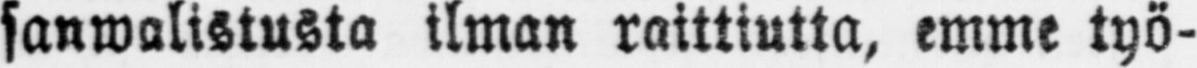sanwalistusta ilman raittiutta, emme työ-
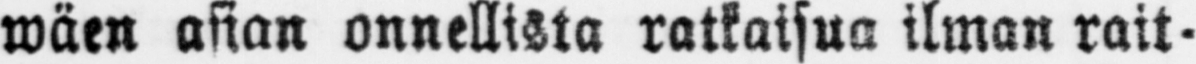wäen asian onnellista ratkaisua ilman rait-
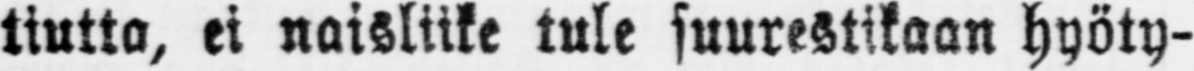tiutta, ei naisliike tule suurestikaan hyöty-
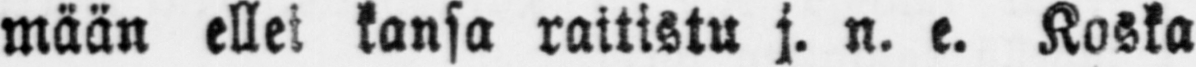mään ellei kansa raitistu j. n. e. Koska
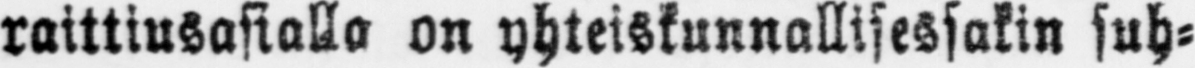raittiusasialla on yhteiskunnallisessakin suh-
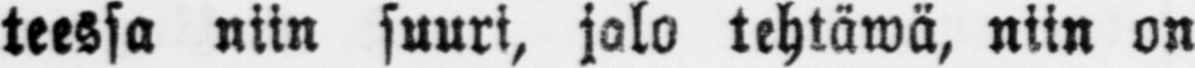teessa niin suuri, jalo tehtäwä, niin on
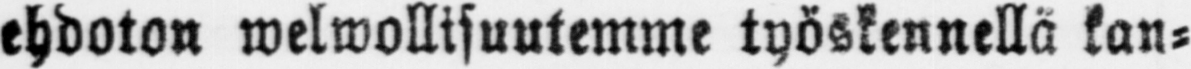ehdoton welwollisuutemme työskennellä kan-
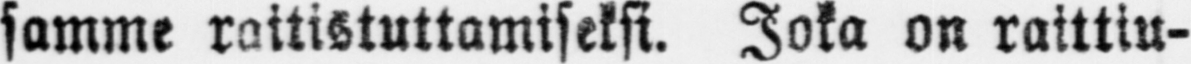samme raitistuttamiseksi. Joka on raittiu-
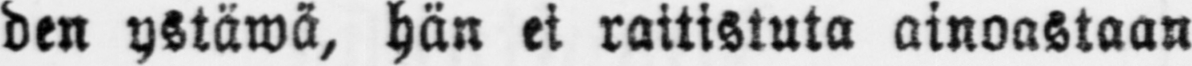den ystäwä, hän ei raitistuta ainoastaan
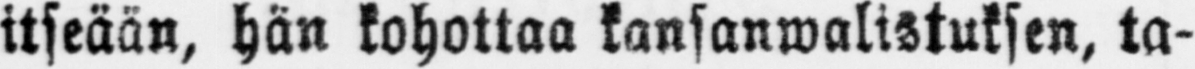itseään, hän kohottaa kansanwalistuksen, ta-
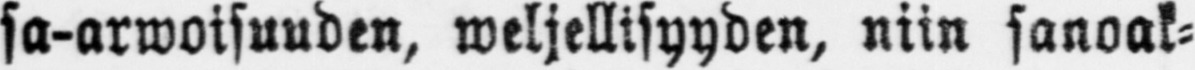sa-arwoisuuden, weljellisyyden, niin sanoak-
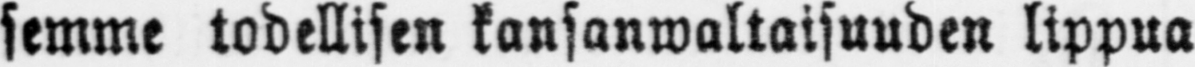semme todellisen kansanwaltaisuuden lippua
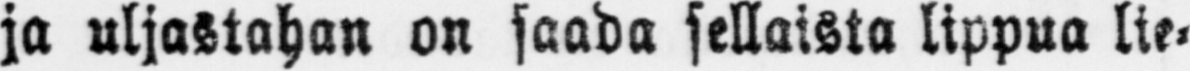ja uljastahan on saada sellaista lippua lie-
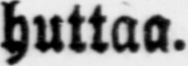huttua.
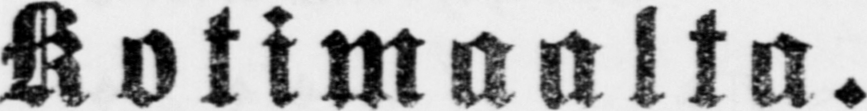Kotimaalta.
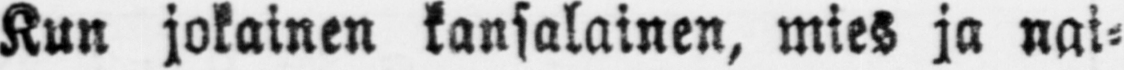Kun jokainen kansalainen, mies ja nai-
